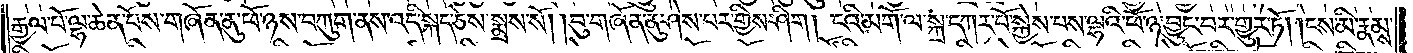རྒྱལ་པོ་ལྷ་ཆེན་པོས་གཞོན་ནུ་ཕོ་ཉས་བཀུག་ནས་འདི་སྐད་ཅེས་སྨྲས་སོ། །བུ་གཞོན་ནུ་ཤེས་པར་གྱིས་ཤིག། ངའི་མགོ་ལ་སྐྲ་དཀར་པོ་སྐྱེས་པས་ལྷའི་ཕོ་ཉ་བྱུང་བར་གྱུར་ཏོ། །ངས་མི་རྣམས་
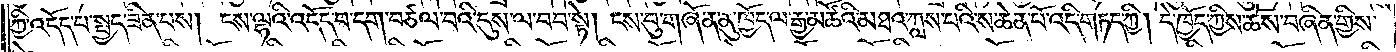ཀྱི་འདོད་པ་སྤྱད་ཟིན་པས། ངས་ལྷའི་འདོད་པ་དག་བཙལ་བའི་དུས་ལ་བབ་སྟེ། ངས་བུ་གཞོན་ནུ་ཁྱོད་ལ་རྒྱ་མཚོའི་མཐའ་ཀླས་པའི་ས་ཆེན་པོ་འདི་གཏད་ཀྱི། དེ་ཁྱོད་ཀྱིས་ཆོས་བཞིན་གྱིས་
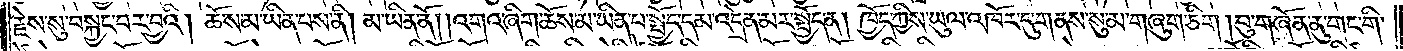རྗེས་སུ་བསྐྱང་བར་བྱའི། ཆོས་མ་ཡིན་པས་ནི། མ་ཡིན་ནོ། །འགའ་ཞིག་ཆོས་མ་ཡིན་པ་སྤྱོད་དམ་འདྲེན་མར་སྤྱོད་ན། ཁྱོད་ཀྱིས་ཡུལ་འཁོར་དུ་གནས་སུ་མ་གཞུག་ཅིག །བུ་གཞོན་ནུ་གང་གི་
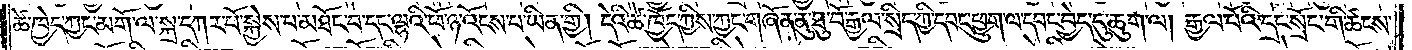ཚེ་ཁྱེད་ཀྱང་མགོ་ལ་སྐྲ་དཀར་པོ་སྐྱེས་པ་མཐོང་བ་དང་ལྷའི་ཕོ་ཉ་འོངས་པ་ཡིན་གྱི། དེའི་ཚེ་ཁྱོད་ཀྱིས་ཀྱང་གཞོན་ནུ་ཐུ་བོ་རྒྱལ་སྲིད་ཀྱི་དབང་ཕྱུག་ལ་དབང་བྱེད་དུ་ཆུག་ལ། རྒྱལ་པོའི་དྲང་སྲོང་གི་ཚངས་
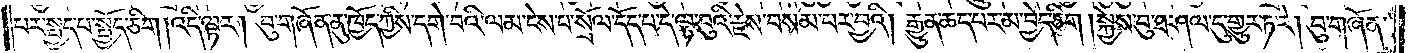པར་སྤྱད་པ་སྤྱོད་ཅིག །འདི་ལྟར། བུ་གཞོན་ནུ་ཁྱོད་ཀྱིས་དགེ་བའི་ལམ་ངེས་པ་སྲོལ་དོད་པ་དེ་ལྟ་བུའི་རྗེས་བསམ་པར་བྱའི། རྒྱུན་ཆད་པར་མ་བྱེད་ཅིག །སྐྱེས་བུ་ཐ་ཤལ་དུ་གྱུར་ཏ་རེ། བུ་གཞོན་
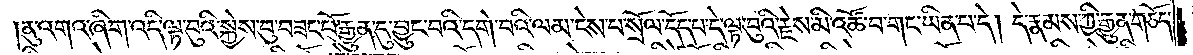ནུ་འགའ་ཞིག་འདི་ལྟ་བུའི་སྐྱེས་བུ་བཟང་པོ་རྒྱུན་དུ་བྱུང་བའི་དགེ་བའི་ལམ་ངེས་པ་སྲོལ་དོད་པ་དེ་ལྟ་བུའི་རྗེས་མི་འཚོ་བ་གང་ཡིན་པ་དེ། དེ་རྣམས་ཀྱི་རྒྱུན་གཅོད་
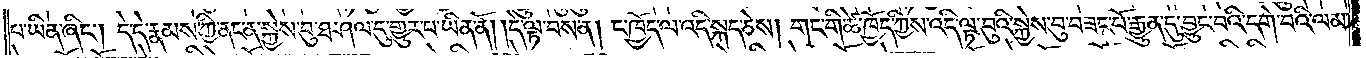པ་ཡིན་ཞིང༌། དེ་དེ་རྣམས་ཀྱི་ནང་ན་སྐྱེས་བུ་ཐ་ཤལ་དུ་གྱུར་པ་ཡིན་ནོ། །དེ་ལྟ་བས་ན། ང་ཁྱོད་ལ་འདི་སྐད་ཅེས། གང་གི་ཚེ་ཁྱོད་ཀྱིས་འདི་ལྟ་བུའི་སྐྱེས་བུ་བཟང་པོ་རྒྱུན་དུ་བྱུང་བའི་དགེ་བའི་ལམ་
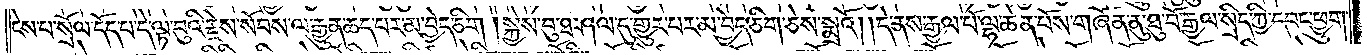ངེས་པ་སྲོལ་དོད་པ་དེ་ལྟ་བུའི་རྗེས་སོབས་ལ་རྒྱུན་ཆད་པར་མ་བྱེད་ཅིག །སྐྱེས་བུ་ཐ་ཤལ་དུ་གྱུར་པར་མ་བྱེད་ཅིག་ཅེས་སྨྲའོ། །དེ་ནས་རྒྱལ་པོ་ལྷ་ཆེན་པོས་གཞོན་ནུ་ཐུ་བོ་རྒྱལ་སྲིད་ཀྱི་དབང་ཕྱུག་
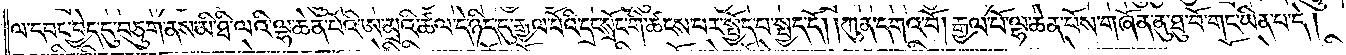ལ་དབང་བྱེད་དུ་བཅུག་ནས་མི་ཐི་ལའི་ལྷ་ཆེན་པོའི་ཨ་མྲའི་ཚལ་དེ་ཉིད་དུ་རྒྱལ་པོའི་དྲང་སྲོང་གི་ཚངས་པར་སྤྱོད་པ་སྤྱད་དོ། །ཀུན་དགའ་བོ། རྒྱལ་པོ་ལྷ་ཆེན་པོས་གཞོན་ནུ་ཐུ་བོ་གང་ཡིན་པ་དེ།
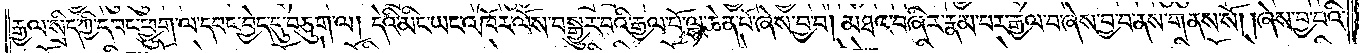རྒྱལ་སྲིད་ཀྱི་དབང་ཕྱུག་ལ་དབང་བྱེད་དུ་བཅུག་ལ། དེའི་མིང་ཡང་འཁོར་ལོས་བསྒྱུར་བའི་རྒྱལ་པོ་ལྷ་ཆེན་པོ་ཞེས་བྱ་བ། མཐའ་བཞིར་རྣམ་པར་རྒྱལ་པ་ཞེས་བྱ་བ་ནས་གནས་སོ། །ཞེས་བྱ་བའི་
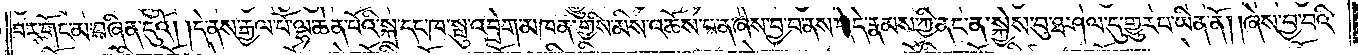བར་གོང་མ་བཞིན་དུའོ། །དེ་ནས་རྒྱལ་པོ་ལྷ་ཆེན་པོའི་སྐྲ་དང་ཁ་སྤུ་འབྲེག་མཁན་གྱིས་མིས་འཆོས་པ་ན་ཞེས་བྱ་བ་ནས་དེ་དེ་རྣམས་ཀྱི་ནང་ན་སྐྱེས་བུ་ཐ་ཤལ་དུ་གྱུར་བ་ཡིན་ནོ། །ཞེས་བྱ་བའི་
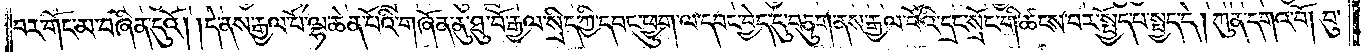བར་གོང་མ་བཞིན་དུའོ། །དེ་ནས་རྒྱལ་པོ་ལྷ་ཆེན་པོའི་གཞོན་ནུ་ཐུ་བོ་རྒྱལ་སྲིད་ཀྱི་དབང་ཕྱུག་ལ་དབང་བྱེད་དུ་བཅུག་ནས་རྒྱལ་པོའི་དྲང་སྲོང་གི་ཚངས་པར་སྤྱོད་པ་སྤྱད་དེ། ཀུན་དགའ་བོ། བུ་
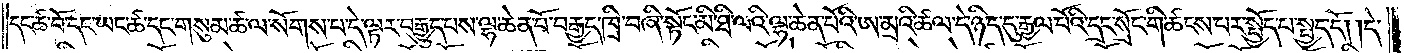དང་ཚ་བོ་དང་ཡང་ཚ་དང་གསུམ་ཚ་ལ་སོགས་པ་དེ་ལྟར་བརྒྱུད་པས་ལྷ་ཆེན་པོ་བརྒྱད་ཁྲི་བཞི་སྟོང་མི་ཐི་ལའི་ལྷ་ཆེན་པོའི་ཨ་མྲའི་ཚལ་དེ་ཉིད་དུ་རྒྱལ་པོའི་དྲང་སྲོང་གི་ཚངས་པར་སྤྱོད་པ་སྤྱད་དོ། །དེ་
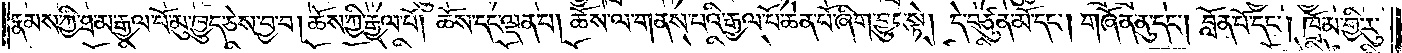རྣམས་ཀྱི་ཐ་མ་རྒྱལ་པོ་མུ་ཁྱུད་ཅེས་བྱ་བ། ཆོས་ཀྱི་རྒྱལ་པོ། ཆོས་དང་ལྡན་པ། ཆོས་ལ་གནས་པའི་རྒྱལ་པོ་ཆེན་པོ་ཞིག་བྱུང་སྟེ། དེ་བཙུན་མོ་དང༌། གཞོན་ནུ་དང༌། བློན་པོ་དང༌། ཁྲོམ་གྱི་རུ་
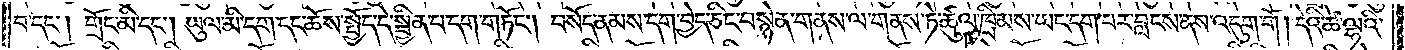བ་དང༌། གྲོང་མི་དང༌། ཡུལ་མི་དག་དང་ཆོས་སྤྱོད་དེ་སྦྱིན་པ་དག་གཏོང༌། བསོད་ནམས་དག་བྱེད་ཅིང་བསྙེན་གནས་ལ་གནས་ཏེ་ཚུལ་ཁྲིམས་ཡང་དག་པར་བླངས་ནས་འདུག་གོ །དེའི་ཚེ་ལྷའི་
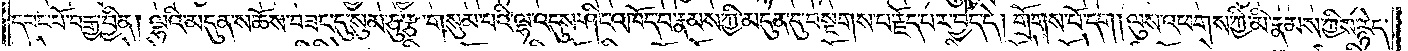དབང་པོ་བརྒྱ་བྱིན། ལྷའི་མདུན་ས་ཆོས་བཟང་དུ་སུམ་ཅུ་རྩ་གསུམ་པའི་ལྷ་འདུས་ཤིང་འཁོད་པ་རྣམས་ཀྱི་མདུན་དུ་བསྔགས་པ་རྗོད་པར་བྱེད་དེ། གྲོགས་པོ་དག །ལུས་འཕགས་ཀྱི་མི་རྣམས་ཀྱི་རྙེད་
